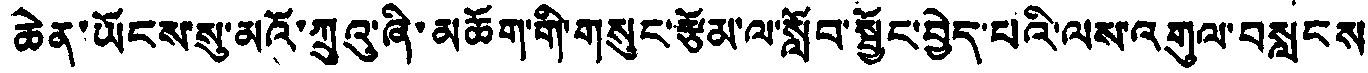ཆེན་ཡོངས་སུ་མའོ་ཀྲུའུ་ཞི་མཆོག་གི་གསུང་རྩོམ་ལ་སློབ་སྦྱོང་བྱེད་པའི་ལས་འགུལ་བསླངས
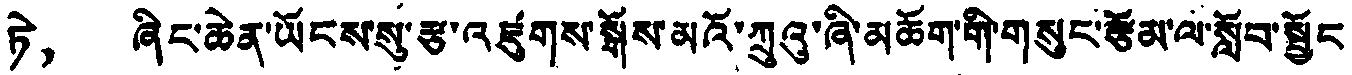ཏེ， ཞིང་ཆེན་ཡོངས་སུ་རྩ་འཛུགས་སྒོས་མའོ་ཀྲུའུ་ཞི་མཆོག་གི་གསུང་རྩོམ་ལ་སློབ་སྦྱོང
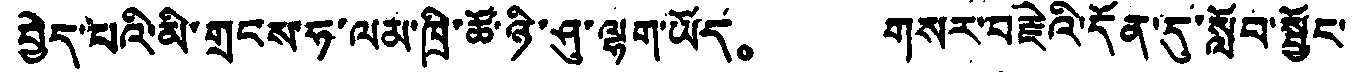བྱེད་པའི་མི་གྲངས་ཧ་ལམ་ཁྲི་ཚོ་ཉི་ཤུ་ལྷག་ཡོད。 གསར་བརྗེའི་དོན་དུ་སློབ་སྦྱོང་
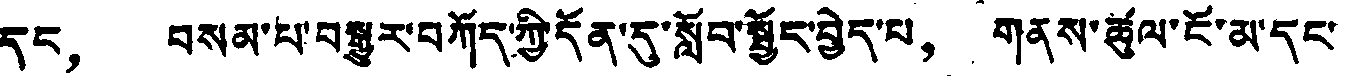དང， བསམ་པ་བསྒྱུར་བཀོད་ཀྱི་དོན་དུ་སློབ་སྦྱོང་བྱེད་པ， གནས་ཚུལ་ངོ་མ་དང་
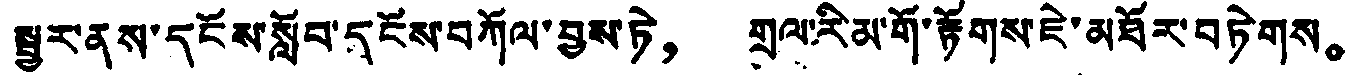སྦྱར་ནས་དངོས་སློབ་དངོས་བཀོལ་བྱས་ཏེ， གྲལ་རི་མ་གོ་རྟོགས་ཇེ་མཐོར་བཏེགས。
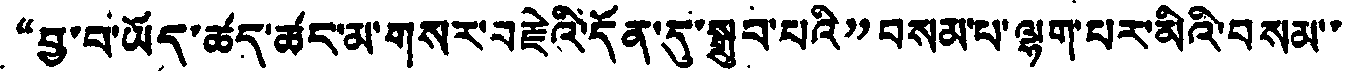“བྱ་བ་ཡོད་ཚད་ཚང་མ་གསར་བརྗེའི་དོན་དུ་སྒྲུབ་པའི”བསམ་པ་ལྷག་པར་མིའི་བསམ་་
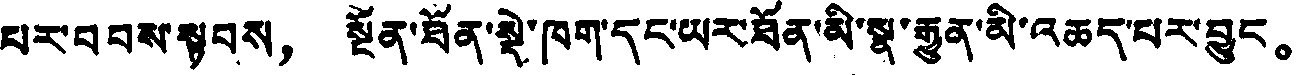པར་བབས་སྟབས， སྔོན་ཐོན་སྡེ་ཁག་དང་ཡར་ཐོན་མི་སྣ་རྒྱུན་མི་འཆད་པར་བྱུང。
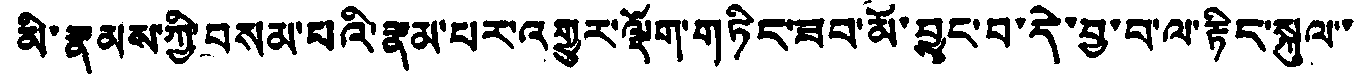མི་རྣམས་ཀྱི་བསམ་པའི་རྣམ་པར་འགྱུར་ལྡོག་གཏིང་ཟབ་མོ་བྱུང་བ་དེ་བྱ་བ་ལ་རྟིང་སྐུལ་་
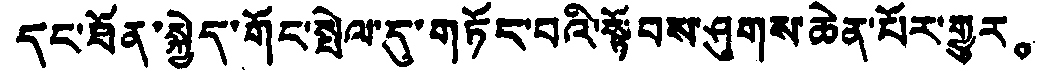དང་ཐོན་སྐྱེད་གོང་སྤེལ་དུ་གཏོང་བའི་སྟོབས་ཤུགས་ཆེན་པོར་གྱུར。
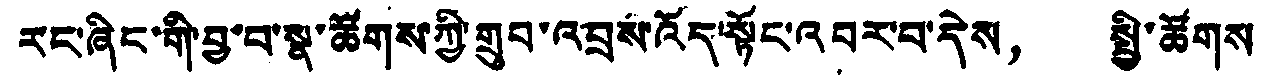རང་ཞིང་གི་བྱ་བ་སྣ་ཚོགས་ཀྱི་གྲུབ་འབྲས་འོད་སྟོང་འབར་བ་དེས， སྤྱི་ཚོགས
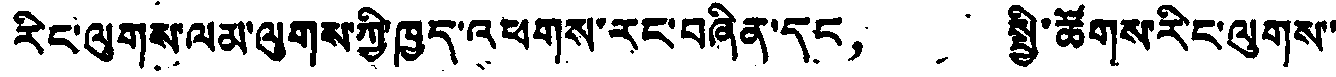རིང་ལུགས་ལམ་ལུགས་ཀྱི་ཁྱད་འཕགས་རང་བཞིན་དང， སྤྱི་ཚོགས་རིང་ལུགས་
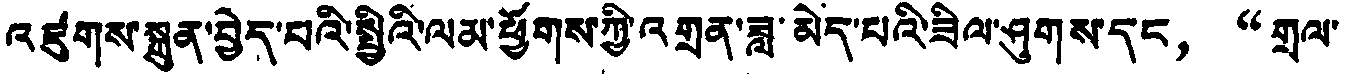འཛུགས་སྐྲུན་བྱེད་པའི་སྤྱིའི་ལམ་ཕྱོགས་ཀྱི་འགྲན་ཟླ་མེད་པའི་ཟིལ་ཤུགས་དང， “གྲལ་
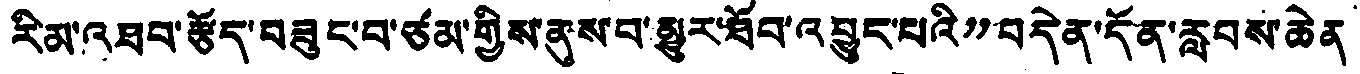རིམ་འཐབ་རྩོད་བཟུང་བ་ཙམ་གྱིས་ནུས་བ་མྱུར་ཐོབ་འབྱུང་པའི”བདེན་དོན་རླབས་ཆེན་
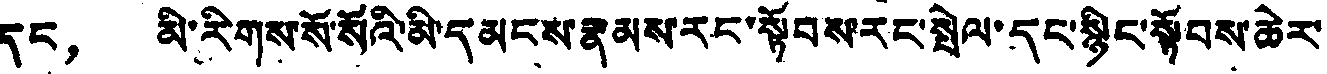དང， མི་རིགས་སོ་སོའི་མི་དམངས་རྣམས་རང་སྟོབས་རང་སྤེལ་དང་སྙིང་སྟོབས་ཆེར་
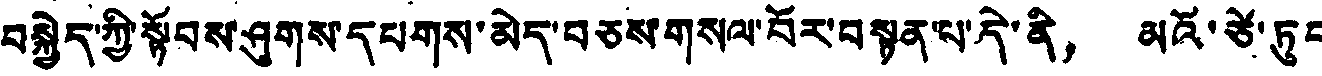བསྐྱེད་ཀྱི་སྟོབས་ཤུགས་དཔགས་མེད་བཅས་གསལ་བོར་བསྟན་པ་དེ་ནི， མའོ་ཙེ་ཏུབ
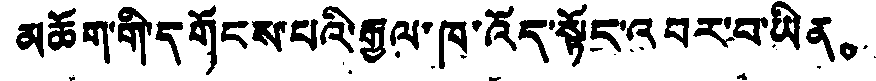མཆོག་གི་དགོངས་པའི་རྒྱལ་ཁ་འོད་སྟོང་འབར་བ་ཡིན。
